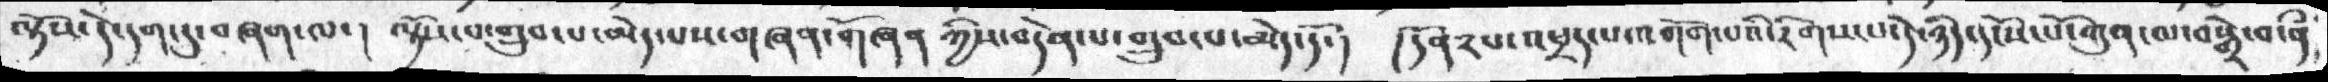ལྟོས་དེ་དག་དུ་བཞག་ལ་།. ལྟོས་པ་གྲུབ་པ་མེད་པས་གཞན་གཞན ཀྱིས་བདེན་པ་གྲུབ་པ་མེད་དོ་། །དོན༢པ་འཕྲད་པ་འགོག་པའི་རིགས་པ་དེ་ཉིད་དངོས་པོ་ཀུན་ལ་བསྒྲེ་བ་ནྀ
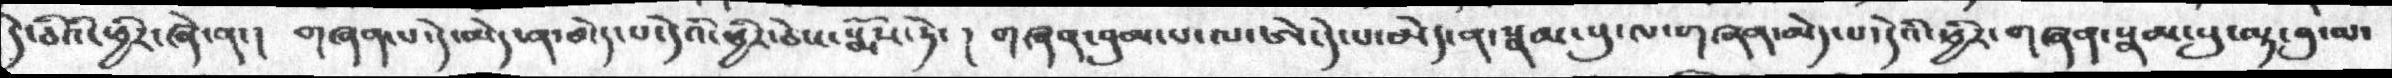དེ་ཅིའི་ཕྱིར་ཞེ་ན་།  གཞན་པ་དེ་མེད་ན་མེད་པ་དེའི་ཕྱིར་ཅེས་སྨོས་ཏེ་།  གཞན་བུམ་པ་ལ་ཨེ་དེ་པ་མེད་ན་སྣམ་པུ་ལ་གཞན་མེད་པ་དེའི་ཕྱིར་གཞན་སྣམ་བུ་ལྟ་བུ་ལ་
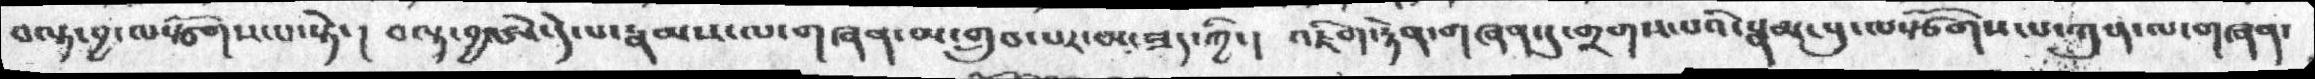བལྟ་བྱ་ལསྩོགས་པ་སྟེ་།  བལྟ་བྱ་ཨེ་དེ་པ་རྣམས་ལ་གཞན་མ་གྲུབ་པར་མ་ཟད་ཀྱི་། འཇིག་རྟེན་གཞན་དུ་གྲགས་པའི་སྣམ་བུ་ལསྩོགས་པ་ཀུན་ལ་གཞན་
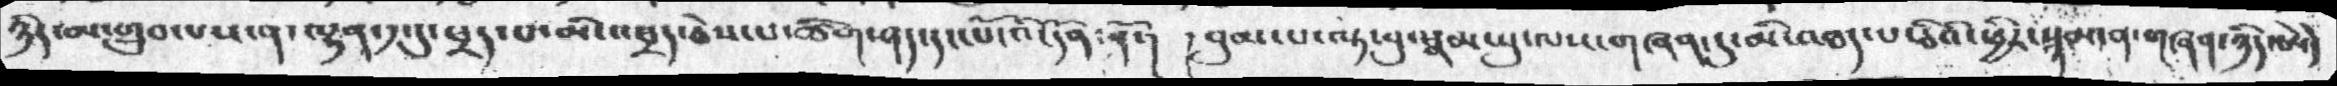ཉིད་མ་གྲུབ་པས་ན་ལྷན་༡་དུ་ཕྲད་པ་མི་འཕྲད་ཅེས་པ་ཚིག་ཤད་དང་པོ་འོ་དོན་ནོ་། །བུམ་པ་ལྟ་བུ་སྣམ་པུ་ལས་གཞན་དུ་མི་འཐད་པ་ཅིའི་ཕྱིར་སྙམ་ན་གཞན་ཉིད་ཨེདེ་
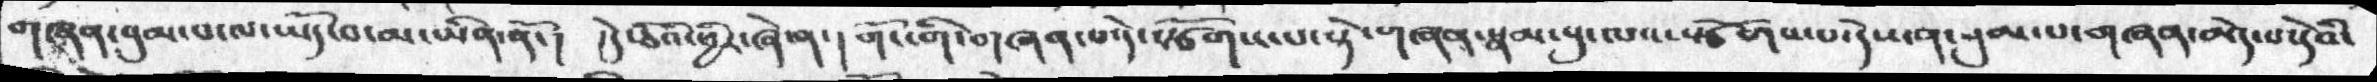གཞན་བུམ་པ་ལ་ཡོད་བ་མ་ཡིན་ནོ་།  །དེ་ཅིའི་ཕྱིར་ཞེ་ན་། གོང་གི་གཞན་པ་དེ་སྩོགས་པ་སྟེ་གཞན་སྣམ་པུ་ལས་སྩོགས་པ་དེས་ན་སུམ་པ་གཞན་མེད་པ་དེའི་
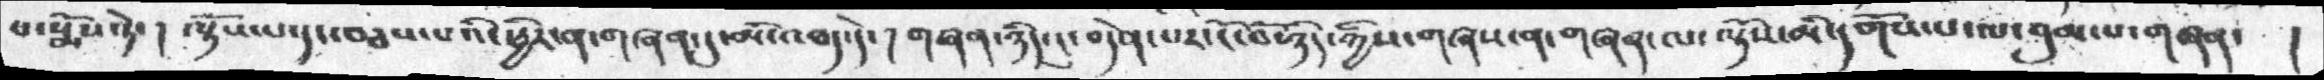པ་སྨོས་ཏེ་།  ལྟོས་པ་དང་བཅས་པའི་ཕྱིར་ན་གཞན་དུ་མི་འཐད་དེ་། གཞན་ཉིད་དུ་བདེན་པར་ངོ་བོ་ཉིད་ཀྱིས་གཞས་ན་གཞན་ལ་ལྟོས་མི་དགོས་པ་ལ་བུམ་པ་གཞན་ །
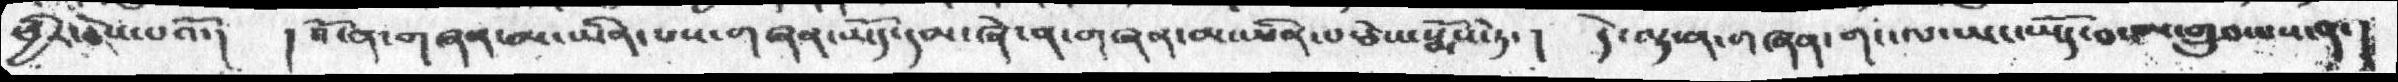ཕྱིར་ཅེས་པའོ་།   །འོ་ན་གཞན་མ་ཡིན་པས་གཞན་ཡོད་དམ་ཞེ་ན་གཞན་མ་ཡིན་པ་ཅེས་སྨོས་ཏེ་།  དེ་ལྟ་ན་གཞན་གང་ལ་ཡང་ཡོད་བ་མ་གྲུབ་པས་ན་།
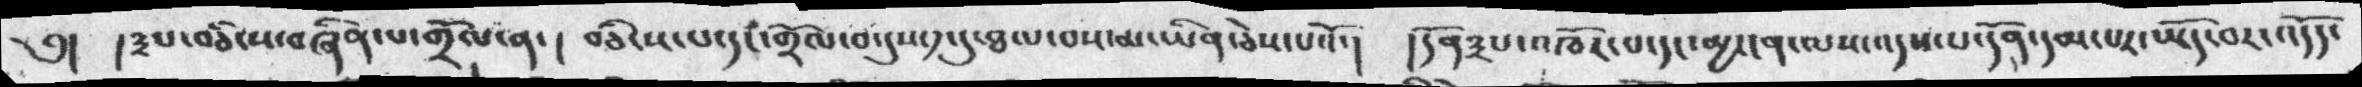༅།  །༣པ་བཅིངས་བཞིན་པ་གྲོལ་ན་། བཅིངས་པ་དང་གྲོལ་བ་དུས་༡་དུ་ཐལ་བས་མ་ཡིན་ཅེས་པའོ་།  །དོན༣པ་འཁོར་བ་དང་མྱ་ངན་ལས་འདས་པ་དོན་དམ་པར་ཡོད་བར་འདོད་
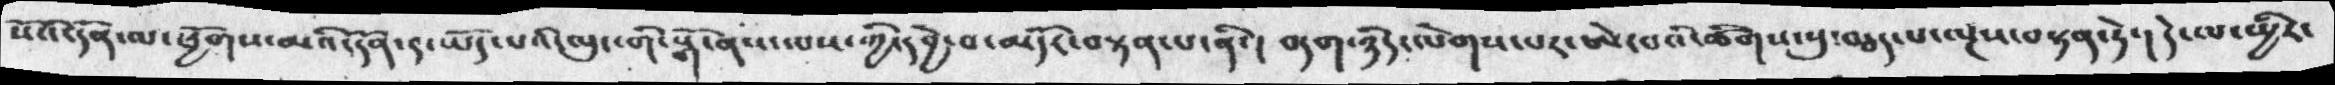སོའོ་དོན་ལ་ཕྱོགས་མའི་དོན་༩་ཡོད་པའི་ལུང་གི་སྒོ་ནས་ལས་ཀྱི་དབྱེ་བ་མདོར་བསྟན་པ་ནི་། བདག་ཉིད་ལེགས་པར་ཨེ་པའི་ཚིགས་སུ་བཅད་པ་ལྔས་བསྟན་ཏེ་། དེ་ལ་ཕྱིར་
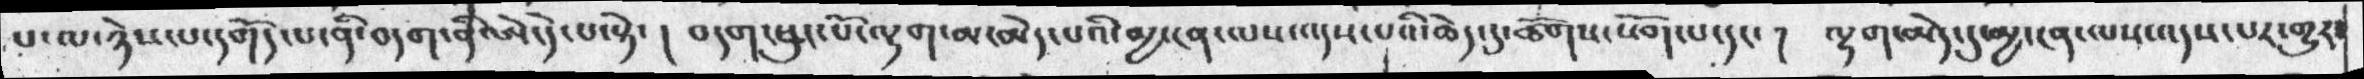པ་ལ་ཉེས་པ་དགོད་པ་ནི་བདག་ནི་ཨེ་དེ་པ་སྟེ་། བདག་ཕུང་པོ་ལྷག་མ་མེད་པའི་མྱ་ངན་ལས་འདས་པའི་ཆེད་དུ་ཚོགས་སོག་པ་དང་། ལྷག་མེད་དུ་མྱ་ངན་ལས་འདས་པར་གྱུར་
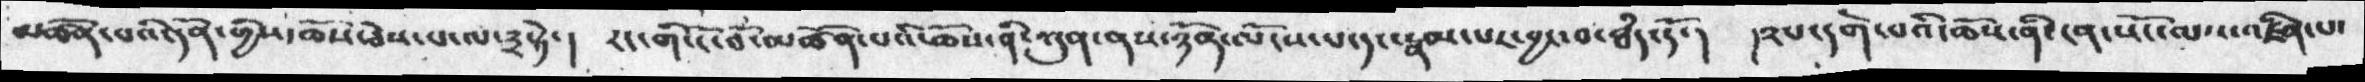མཚོན་པའི་དོན་གྱིས་ཆོས་ཅེས་པ་ལ་༣སྟེ་། རང་གི་ངོ་བོ་མཚོན་པའི་ཆོས་ནི་ཀུན་ནས་ཉོན་མོངས་པ་དང་རྣམ་པར་བྱ་བ་ཐཾད་དོ་། །༢པ་དགེ་བའི་ཆོས་ནི་ངན་སོང་ལས་འཛིན་པ་
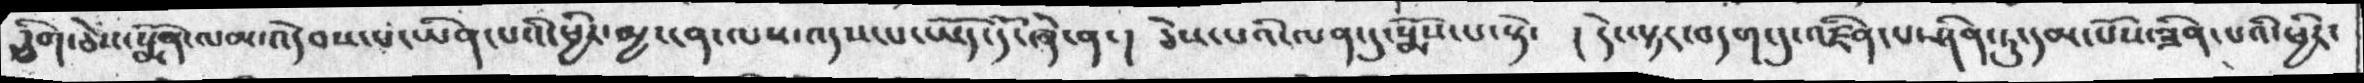ཅིག་ཅེས་སྨོན་ལམ་འདེབས་པ་ཡིན་པའི་ཕྱིར་མྱ་ངན་ལས་འདས་པ་ཡོད་དོ་ཞེ་ན་།  ཅེས་པའི་ལན་དུ་སྨོས་པ་སྟེ་། །དེ་ལྟར་བདག་དུ་འཛིན་པ་ཤིན་ཏུ་དམ་པོས་ཟིན་པའི་ཕྱིར་
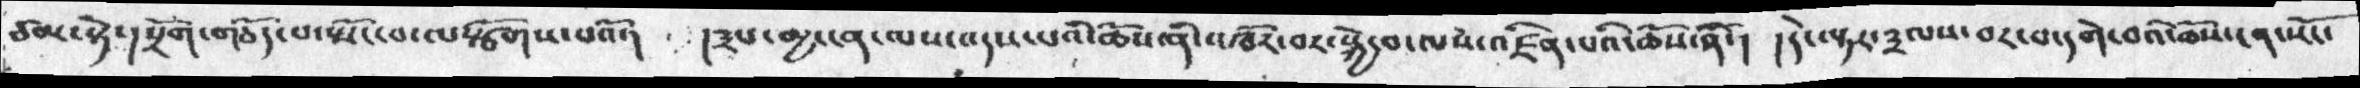ཙམ་སྟེ་།སྲོག་གཅོད་པ་སྤོང་བ་ལསྩོགས་པའོ་།  །༣པ་མྱ་ངན་ལས་འདས་པའི་ཆོས་ནི་འཁོར་བར་སྐྱེ་བ་ལས་འཛིན་པའི་ཆོས་ནི་། །དེ་ལྟར་༣ལས་བར་བ་དགེ་བའི་ཆོས་ངན་སོང་
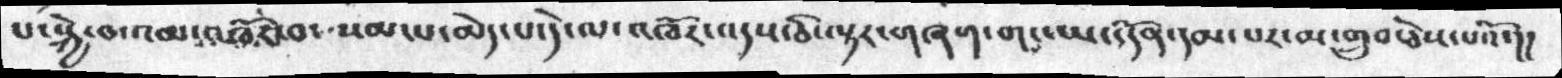པ་སྐྱེ་བ་འམ་འཁོར་བ་སམ་པ་མེད་པ་དེ་ལ་འཁོར་འདས་ཅི་ལྟར་གཞག་གང་ཡང་དོན་དམ་པར་མ་གྲུབ་ཅེས་པའོ་།།
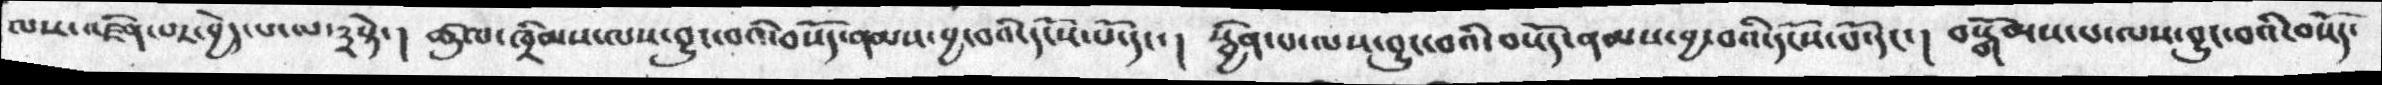ལས་འཛིན་པར་བྱེད་པ་ལ་༣སྟེ་། ཚུལ་ཁྲིམས་ལས་བྱུང་བའི་བསོད་ནམས་བྱ་བའི་དངོས་པོ་དང་། སྦྱིན་པ་ལས་བྱུང་བའི་བསོད་ནམས་བྱ་བའི་དངོས་པོ་དང་།  བསྒོམས་པ་ལས་བྱུང་བའི་བསོད་
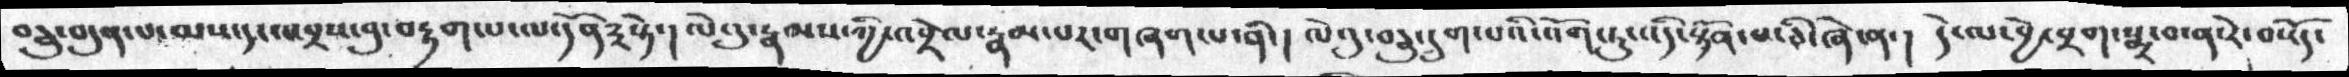བཅི་བདུན་པ་ལས་དང་འབྲས་བུ་བརྟག་པ་ལ་དོན༣སྟེ་། ལེའུ་རྣམས་ཀྱི་འབྲེལ་རྣམ་པར་གཞག་པ་ནི་། ལེའུ་བཅུ་དྲུག་པའི་འོག་ཏུ་སྟོན་པ་ཅི་ཞེ་ན་། དེ་ལ་བྱེ་བྲག་སྨྲ་བ་ན་རེ་བསོད་
